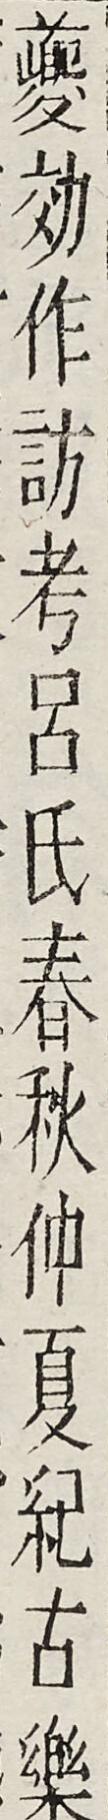夔効作訪考呂氏春秋仲夏紀古樂
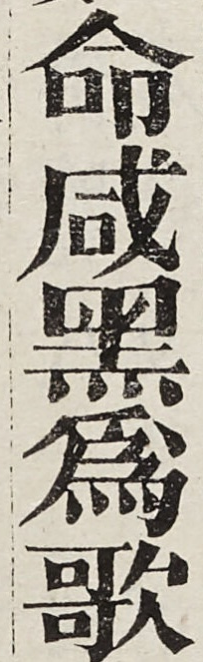命咸黑為歌
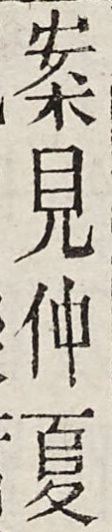案見仲夏
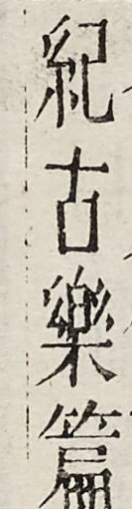紀古樂篇
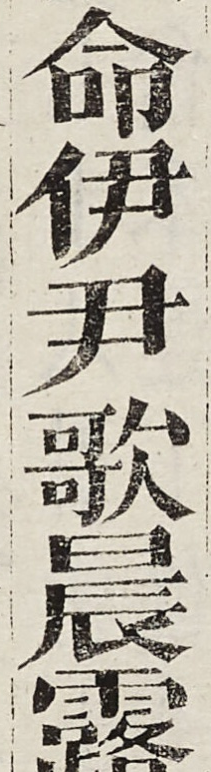命伊尹歌晨露
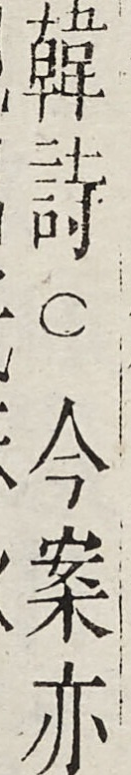韓詩○今案亦
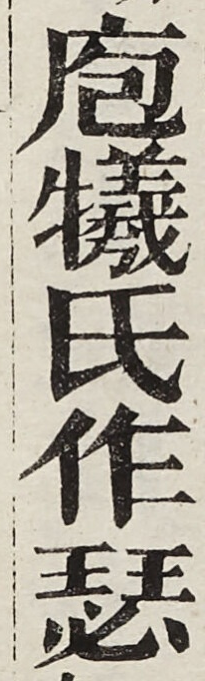庖犧氏作瑟
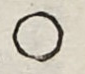○
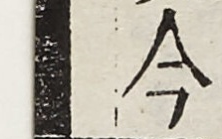今
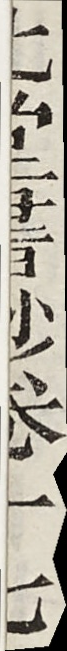北堂書鈔卷一七
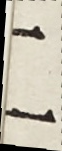二
